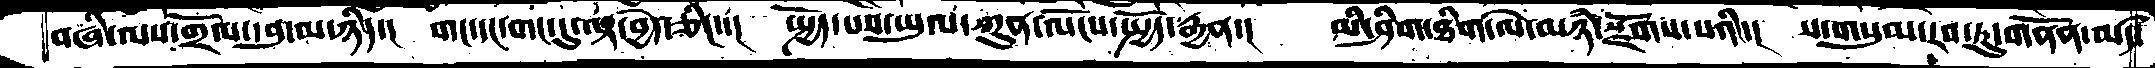བཞི་ལས་གྲོལ་དབུ་མ་ཉིད་།  གང་དང་གང་དུ་ལྟ་བྱེད་ཅིང་་།  སྤྱོད་པས་ཡུལ་ཀུན་ལོངས་སྤྱོད་རྒྱན་།  མི་ཤིག་ཐིག་ལེ་མཉཾ་སྫོགས་པའི་།  ས་གསུམ་རབ་ཏུ་གནོན་མཛད་།
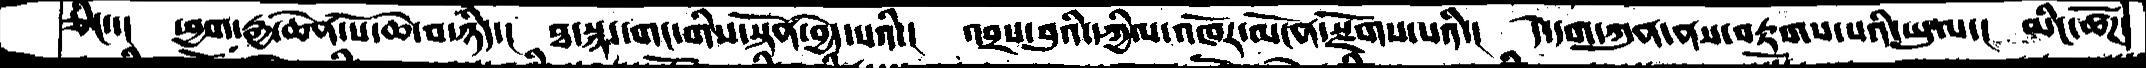ཅིང་་།  ཕྱག་རྒྱ་ཆེན་པོ་ཆེ་བ་ཉིད་།  ཐ་སྙད་གང་གིས་སྟོན་བྱེད་པའི་།  འབྲས་བུའི་དཀྱིལ་འཁོར་མངོན་སྫོགས་པའི་།  དེ་དག་ཀུན་ནས་བརྟགས་པའི་ཡུལ་།  མིང་ཚོཌ་
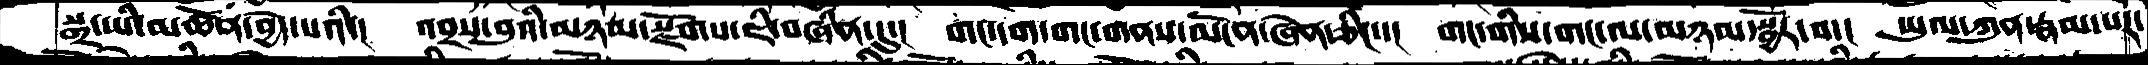སྒྲ་ཡི་མཚོན་བྱེད་པའི་།  འབྲས་བུའི་མཉམ་སྫོགས་ཇི་བཞིན་དུ་།  གང་དག་གང་གནས་མངོན་ཞེན་ཅིང་་།  གང་གིས་གང་ལ་མཉམ་སྦྱོར་བ་།  ཡུལ་ཀུན་རྣམ་པར་
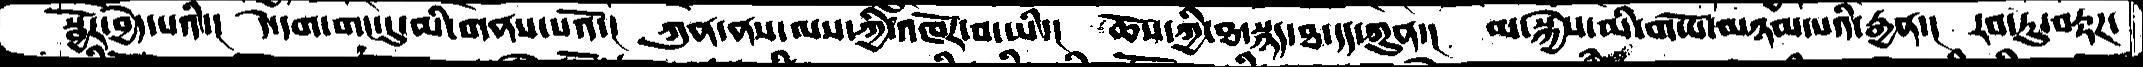སྦྱོར་བྱེད་པའི་།  དེ་དག་གང་དུ་མི་གནས་པའོ་།  ཀུན་ནས་ལས་ཀྱི་འཁོར་བ་ཡི་།  ཆོས་ཀྱི་ཐ་སྙད་ཐ་དད་ཀུན་།  མ་སྐྱེས་མི་གཡོ་མཉམ་པའི་རྒྱན་།  རབ་ཏུ་བརྟཌ་
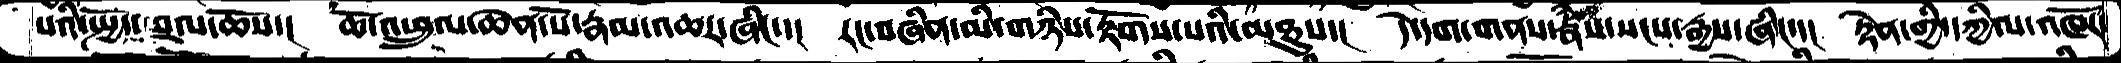པའི་སྤྱོད་བྲལ་ཆོས་།   ཆོ་འཕྲུལ་ཆེན་པོ་རྣམ་འཆར་ཞིང་་།   རང་བཞིན་མི་གཉིས་རྟོགས་པའི་མཐུས་།  དེ་དག་གནས་རྣཾས་སངས་རྒྱས་ཞིང་་།  རྟེན་གྱི་དཀྱིལ་འཁོར་
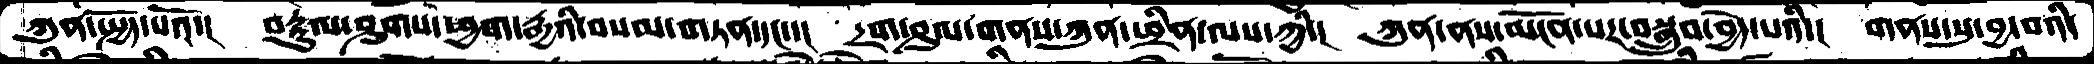ཀུན་སྤྱོད་པའོ་།   བརྟུལ་ཤུགས་ཕྱག་རྒྱའི་བསམ་གཏན་དང་་།  དྲག་ཤུལ་གནས་ཀུན་ཕྲིན་ལས་ཀྱི་།  ཀུན་ནས་མངོན་པར་བསྒྲུབ་བྱེད་པའི་།  གནས་སུ་བྱ་བའི་
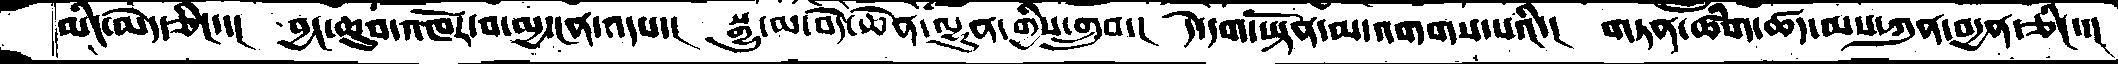མིང་མེད་ཅིང་་།  བྱང་ཆུབ་འཁོར་བ་མྱ་ངན་འདས་།  སྒྱུ་མ་བདེ་ཆེན་ལྷུན་གྱིས་གྲུབ་།   དེ་དག་ཡྟོན་མ་འགགས་པའི་།  གཏན་ཚིག་ཚད་མས་ཀུན་བདྱན་ཅིང་་།
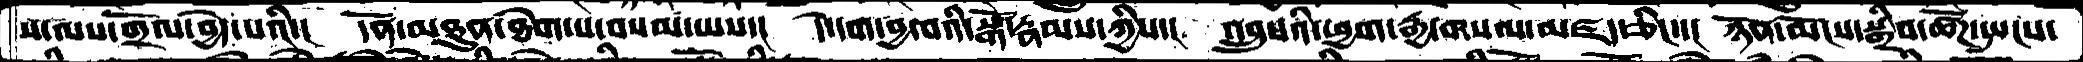ས་ལས་གྲོལ་བྱེད་པའི་།  དོན་མཐུན་ཐེག་པ་བསམ་ཡས་།  དེ་དག་བྱ་བའི་སྒོ་རྣམས་ཀྱིས་།  འབྲུསའི་ཕྱག་རྒྱ་གསལ་མཛད་ཅིང་།  ཉོན་མོངས་སྒྲིབ་ཚོཌ་སྤངས་
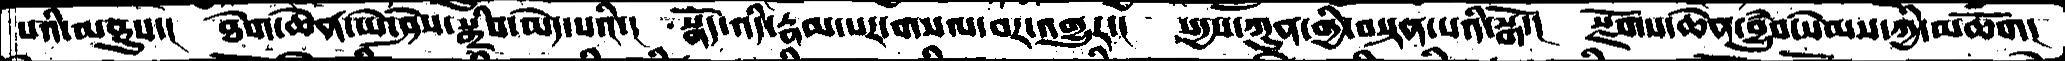པའི་མཐུས་།  ཐེག་ཆེན་ཡེ་ཤེས་སྒྲིབ་མེད་པའི་།  སྣོད་འདི་རྣམ་པར་གསལ་བར་འགྱུར་།  སདྱས་ཀུན་གྱི་བསྟན་པའི་སྒོ་།  སྫོགས་ཆེན་བྱུཾབ་སེམས་ཀྱི་མཆོག།
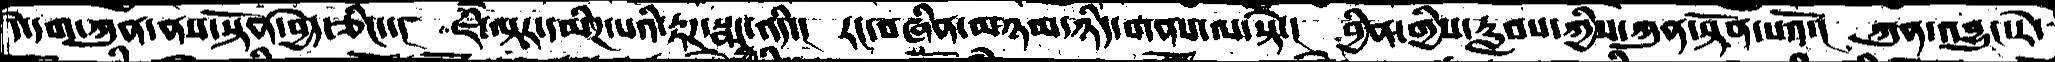དེ་དག་ཀུན་ནས་སྟོོན་བྱེད་ཅིང་།  ཇི་ལྟར་དམིགས་པའི་རྟཌ་སྣང་འདི་།  རང་བཞིན་མཉམ་ཉིད་གནས་ལ་སྟེ་།  བྱིན་གྱིས་རླབས་ཀྱིས་ཀུན་སྟོན་པའོ་།  ཀུན་འབྱུང་རེ་
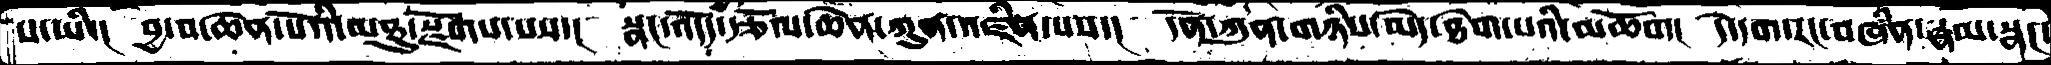པ་ཡི་།  བྱ་བ་ཆེན་པོའི་མཐུ་སྫོགས་པས་།  སྣང་འདོད་རྩོལ་ཆེན་ཀུན་འཛིན་པས་།  དོན་ཀུན་གཉིས་མེད་ཐེག་པའི་མཆོག།  དེ་དག་རང་བཞིན་རྣམ་སྣང་
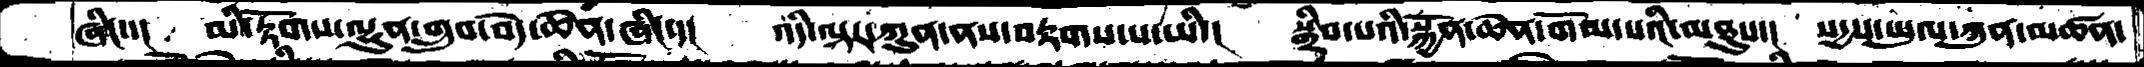ཞིང་་།  མི་རྟོགས་ལྷུན་གྲུབ་བདེ་ཆེན་ཞིང་་།  འདི་ལྟར་ཀུན་ནས་བརྟགས་པ་ཡི་།  སྒྲིབ་པའི་སྐྱོན་ཆེན་གོལ་པའི་མཐུས་།  སདྱས་ཡུལ་ཀུན་མཚན་
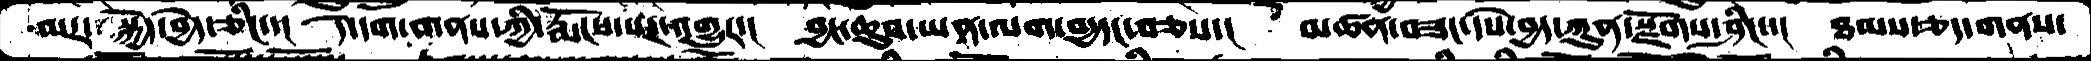མར་བསྐྱེད་བྱེད་ཅིང་་།   དེ་དག་གནས་ཀྱི་རྨོངས་པར་འགྱུར་།  བྱང་ཆུབ་ཡན་ལག་བདྱདང་བཅས་།  མཚན་བཟང་དཔེ་བྱད་ཀུན་སྫོགས་ཤིང་་།  ཐམས་ཅད་གནས་
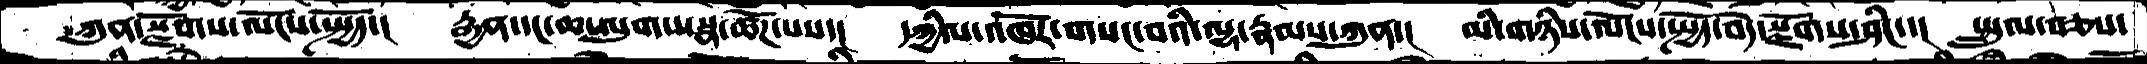ཀུན་སྫོགས་ལོངས་སྤྱོད་།  རྒྱན་དང་ཆ་ལུགས་སྣ་ཚོཌ་པས་།  དཀྱིལ་འཁོར་གསང་བའིལྷ་རྣམས་ཀུན་།  མི་གཉིས་ལོངས་སྤྱོད་བདེ་སྫོགས་ཤིང་་།  སྤྲུལ་བཅས་
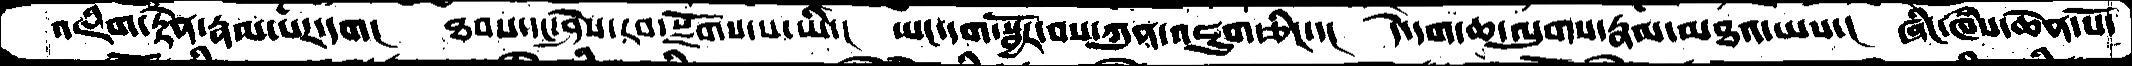འཇིག་རྟེན་རྣམ་པར་དག།  ཐབས་དང་ཤེས་རབ་སྫོགས་པ་ཡི་།  ཡང་དག་སྦྱོར་བས་ཀུན་འཇུག་ཅིང་་།  དེ་དག་ཆ་ལུགས་རྣམ་མཐའ་ཡས་།  ཞིང་ཁཾས་ཆེན་པོ་
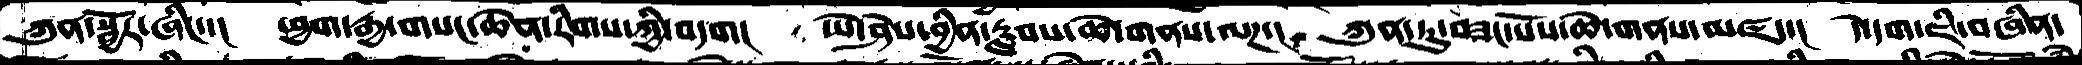ཀུན་སྦྱོར་ཞིང་་།   ཕྱག་རྒྱ་གསང་ཆེན་རིགས་ཀྱི་བདག།  ཡེ་ཤེས་བྱིན་རླབས་ཚེ་གནས་ལཌ་།  ཀུན་ཏུ་བཟང་པོས་ཆེ་གནས་མཛད་།  དེ་དག་ཇི་བཞིན་
